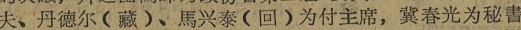夫、丹德尔（藏）、馬兴泰（回）为付主席，冀春光为秘書
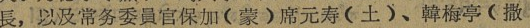長，以及常务委員官保加（蒙）席元寿（土）、韓梅亭（撒
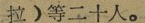拉）等二十人。
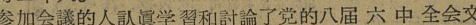参加会議的人认眞学習和討論了党的八届 六 中 全会文
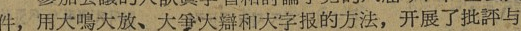件，用大鳴大放、大爭大辯和大字报的方法，开展了批評与
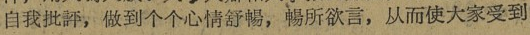自我批評，做到个个心情舒暢，暢所欲言，从而使大家受到
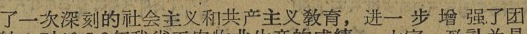了一次深刻的社会主义和共产主义敎育，进一步增强了团
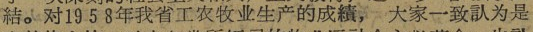結。对1958年我省工农牧业生产的成績，大家一致认为是
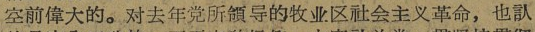空前偉大的。对去年党所領导的牧业区社会主义革命，也认
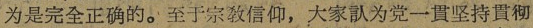为是完全正确的。至于宗敎信仰，大家认为党一貫坚持貫彻
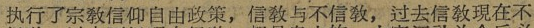执行了宗敎信仰自由政策，信敎与不信敎，过去信敎现在不
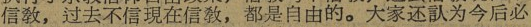信敎，过去不信现在信敎，都是自由的。大家还认为今后必
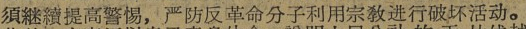須継續提高警惕，严防反革命分子利用宗敎进行破坏活动。
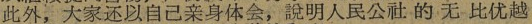此外，大家还以自己亲身体会，說明人民公社 的 无 比 优越
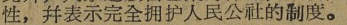性，并表示完全拥护人民公社的制度。
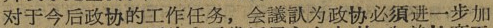对于今后政协的工作任务，会議认为政协必須进一步加
